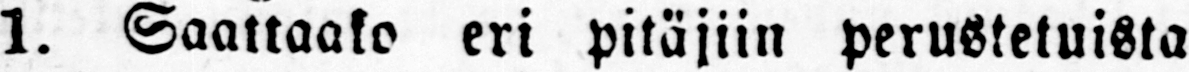1. Saanaako eri pitäjiin perustetuista
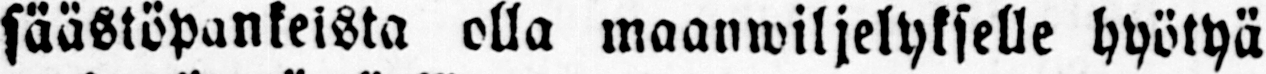säästöpankeista olla maanwiljelykselle hyötyä
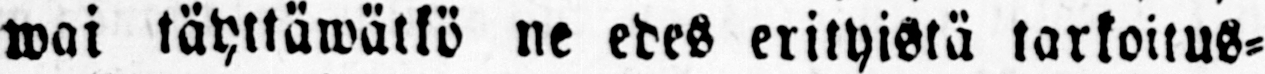wai täyttäwätkö ne edes erityistä tarkoitus-
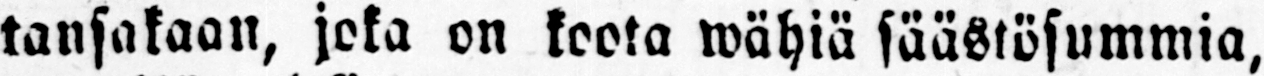tansakaan, joka on koota wähiä säästösummia,
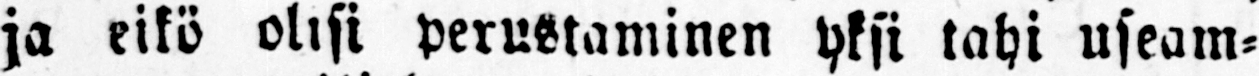ja eikö olisi perustaminen yksi tahi useam-
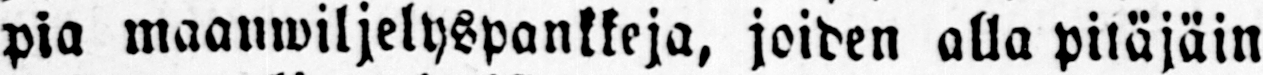pia maanwiljelyspankkeja, joiden alla pitäjäin
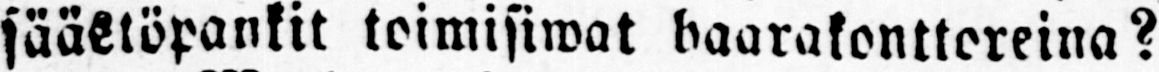säästöpankit toimisiwat haarakonttoreina?
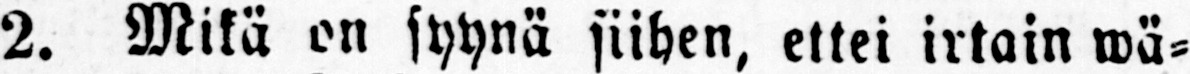2. Mikä on syynä siihen, ettei irtain wä-
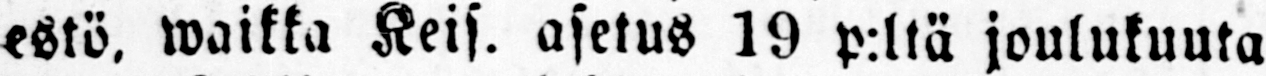estö, waikka Keis. asetus 19 p:ltä joulukuuta
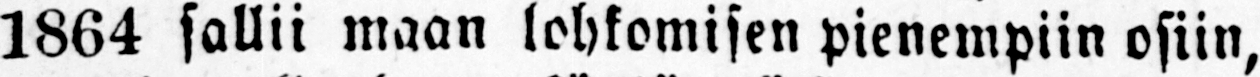1864 sallii maan lohkomisen pienempiin osiin,
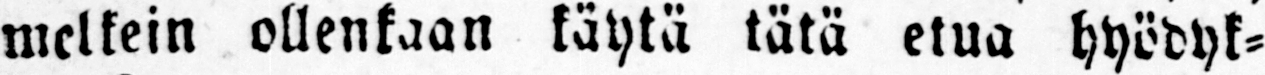melkein ollenkaan käytä tätä etua hyödyk-
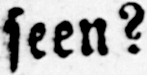seen?
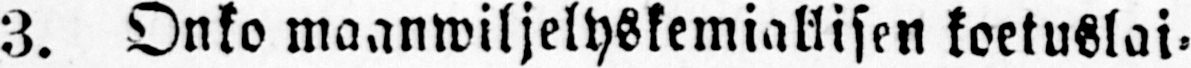3. Onko maanwiljelyskemiallisen koetuslai-
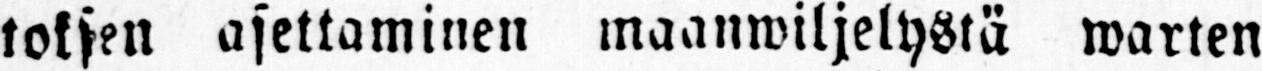toksen asettaminen maanwiljelystä warten
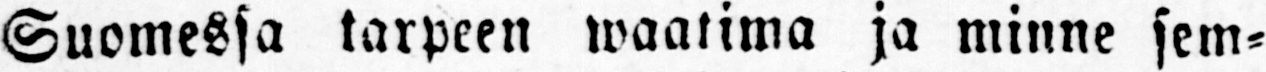Suomessa tarpeen waatima ja minne sem-
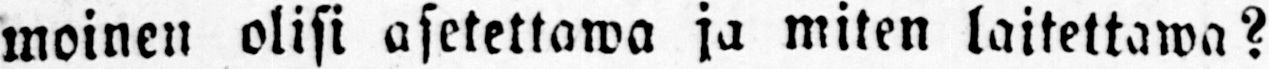moinen olisi asetettawa ja miten laitettawa?
